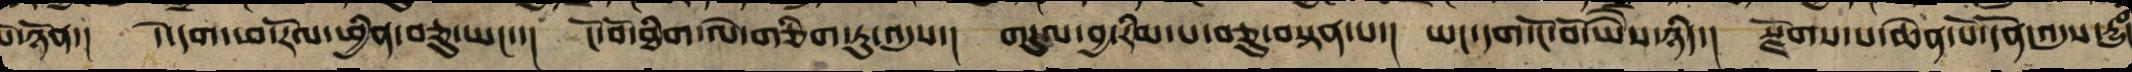པོ་ཉོན་། དེ་དག་ཕ་རོལ་ཕྱིན་བཅུ་ཡང་་། ངོ་བོ་ཐིག་ལེ་གཅིག་ཏུ་འདུས་། གདུལ་བྱ་རིམ་པ་བཅུར་བསྟན་པ་། ཡང་དག་ངོ་བོར་ཡེཻས་ཉིད་། སྫོགས་པ་ཆེན་པོ་དོན་འདུས་རྱུཾང
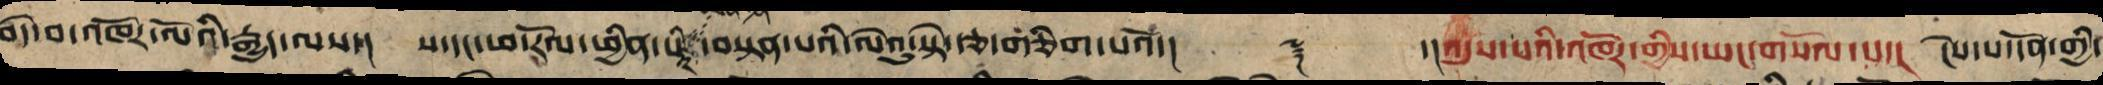བདེ་བའི་འཁོར་ལོའི་རྒྱུད་ལས་། ས་དང་ཕ་རོལ་ཕྱིན་པའི་ཡོན་ཏན་བསྟན་པའི་ལེའུ་སྟེ་ཉི་ཤུ་རྩ་གཅིག་པའོ།། ༈ ་།འདུས་པའི་འཁོར་གྱིས་ཡང་གསོལ་པ་། ངེས་པའི་དོན་གྱི་
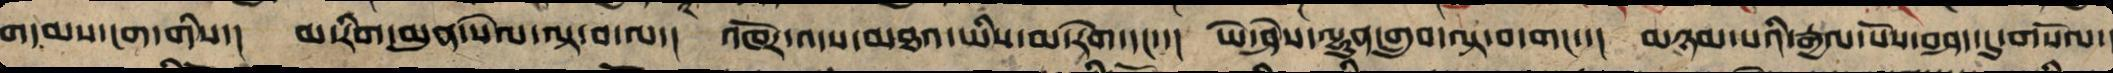གདམས་ངག་གིས་། མ་རིག་མུན་སེལ་ལྟ་བ་ལ་། འཁོར་འདས་མཐའ་ཡིས་མ་རེག་དང་་། ཡེ་ཤེས་ལྷུན་གྲུབ་ལྟ་བ་གང་་། མཉམ་པའི་རྒྱལ་པོས་བཤད་དུ་གསོལ་
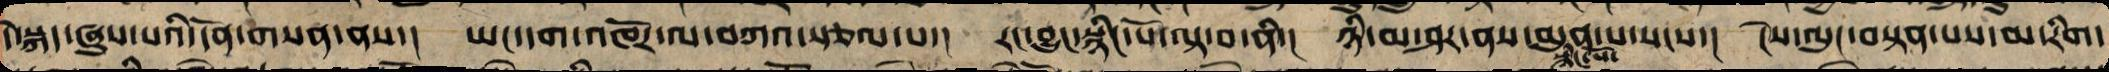དེ་སྐད་ཞུས་པའི་དོན་གསན་ནས། ཡང་དག་འཁོར་ལ་བཀའ་སྩལ་པ་། རང་བྱུང་སྙིང་པོའི་ལྟ་བ་ནི་། ཉི་མ་ཤར་ནས་མུན་པ་སངས་། ངེས་ལུང་བསྟན་པས་མ་རིག་
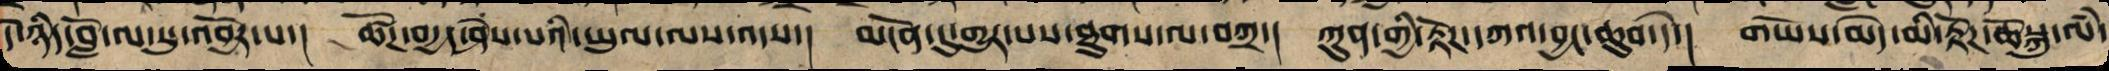དེ་ཉིད་བློ་ལ་སུ་འབྱོར་པ་། ཚོཌ་བདྱད་ཤེས་པའི་ཡུལ་ལས་འདས་། མངོན་དུ་གྱུར་པས་ཐུགས་ལ་བཀྲ་། ཀུན་གྱི་རྟོཌ་དཀའ་བྱང་ཆུབ་དེ་། གཡོས་མེད་མི་རྟོཌ་ཆོསྐུ་ལཾ་
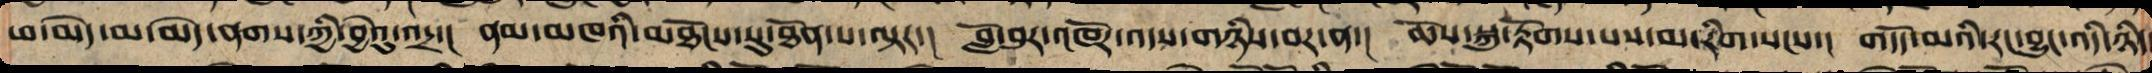ཕ་མེད་མ་མེད་ནགས་ཀྱི་བྱེའུ་འདྲ་། ནམ་མཁའི་མཐོངས་སུ་ཐོན་པ་ལྟར་། གློ་བུར་འཁོར་འདས་གཉིས་བར་ན་། ཆོས་སྐུ་རྟོགས་པས་མ་རིག་སངས་། གདོད་མའི་རང་བྱུང་འདི་ཉིད
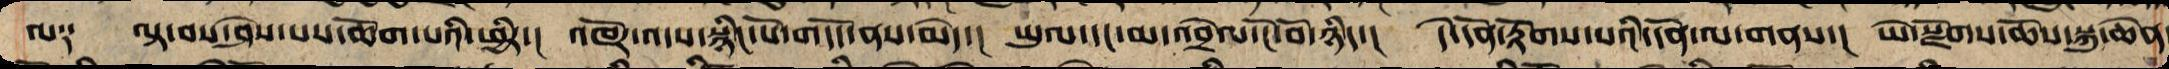ལ༑ ལྟ་བ་ཤེས་པས་ཆོག་པའི་ཕྱིར་། འཁོར་འདས་སྙིང་པོ་གདོད་ནས་མེད་། ཡུལ་དང་མ་འབྲེལ་ངོ་བོ་ཉིད་། དེ་དོན་རྟོགས་པའི་དོན་ལ་གནས་། ཡེ་སྫོགས་ཆོས་སྐུ་ཆེན
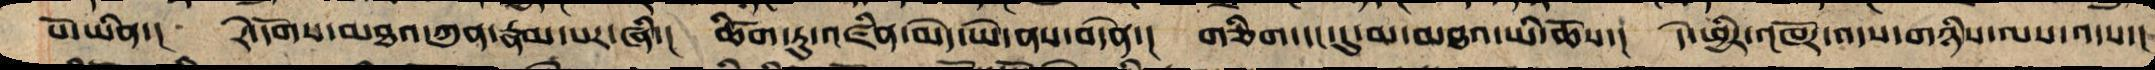པོ་ཡིན་། རེ་དོགས་མཐའ་ཀུན་རྣམ་པར་ཞི་། ཚིག་ཏུ་འཛིན་མེད་ཡེ་ནས་བདེན་། གཅིག་དང་དུ་མ་མཐའ་ཡི་ཆོས་། དེ་ཕྱིར་འཁོར་འདས་གཉིས་ལས་འདས་།
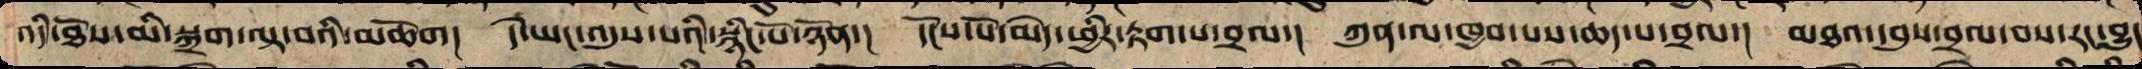འདི་ཐོས་མི་སྐྲག་ལྟ་བའི་མཆོག། དེ་ཡང་འདུས་པའི་སྙིང་པོ་ཉོན་། དངོས་པོ་མེད་ཕྱིར་རྟག་པ་བྲལ་། ཀུན་ལ་ཁྱབ་པས་ཆད་པ་བྲལ་། མཐའ་དབུས་བྲལ་བས་རང་བྱུང
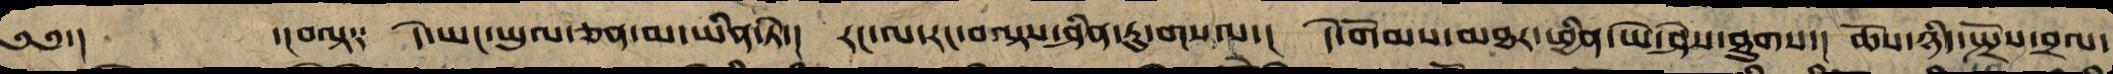༄༅་། ་ངབལྟ༑ དེ་ཡང་ཡུལ་ཅན་མ་ཡིན་ཏེ་། རང་ལ་རང་བལྟས་ཤིན་ཏུ་གསལ་། དེ་གོམས་མཐར་ཕྱིན་ཡེ་ཤེས་ཐུགས་། ཆོས་ཉིད་སྤྲོས་བྲལ་
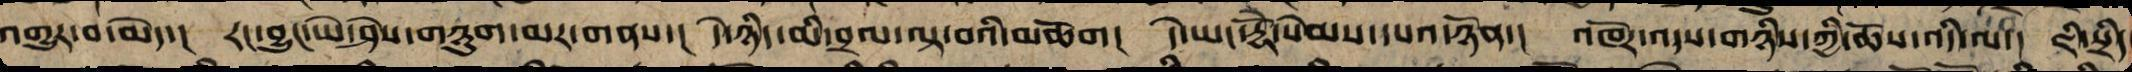འགྱུར་བ་མེད་། རང་བྱུང་ཡེ་ཤེས་གཉུག་མར་གནས་། དེ་ཉིད་མི་བྲལ་ལྟ་བའི་མཆོག། དེ་ཡང་རྡོེ་སེམས་དཔའ་ཉོན་། འཁོར་འདས་གཉིས་ཀྱི་ཆོས་འདི་ལ་། ཇི་སྲིད་
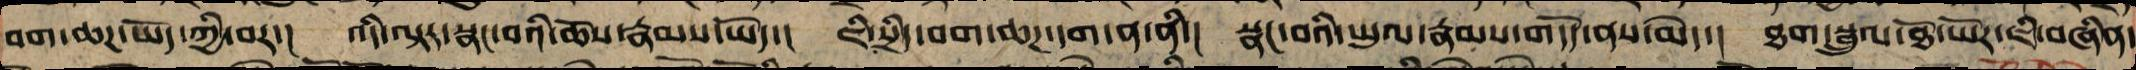བག་ཆཌ་ཡོད་ཀྱི་བར་། འདི་ལྟར་སྣང་བའི་ཆོས་རྣམས་ཡོད་། ཇི་སྲིད་བག་ཆཌ་དག་ན་ནི་། སྣང་བའི་ཡུལ་རྣམས་གདོད་ནས་མེད་། ཐག་སྦྲུལ་ཐོ་ཡོར་ཇི་བཞིན་
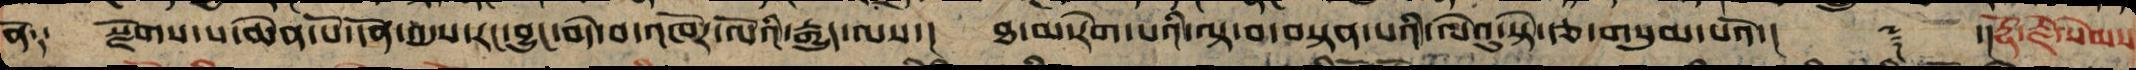ནོ༑ སྫོགས་པ་ཆེན་པོ་དོན་འདུས་རང་བྱུང་བདེ་བའི་འཁོར་ལོའི་རྒྱུད་ལས་། ཐ་མ་རེག་པའི་ལྟ་བ་བསྟན་པའི་ལེའུ་སྟེ་ཉི་ཤུ་རྩ་གསུམ་པའོ་།། ༈ ་།རྡོ་རྗེ་སེམས་
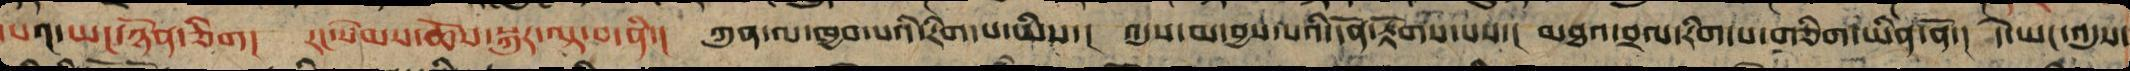དཔའ་ཡང་ཉོན་ཅིག། རང་སེམས་ཆོས་སྐུར་བལྟ་བ་ནི་། ཀུན་ལ་ཁྱབ་པའི་རིག་པ་ཡིས་། འདུས་མ་བྱས་པའི་དོན་རྟོགས་པས་། མཐའ་བྲལ་རིག་པ་གཅིག་ཡིན་ནོ་། དེ་ཡང་འདུས་
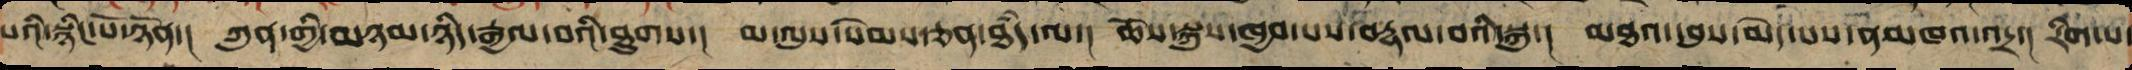པའི་སྙིང་པོ་ཉོན་། ཀུན་གྱི་མཉམ་ཉིད་རྒྱལ་བའི་ཐུགས་། མ་ལུས་སེམས་ཅན་ཐཾད་ལ་། ཆོས་སྐུས་ཁྱབ་པར་བརྡལ་བའི་སྐུ་། མཐའ་དབུས་མེད་པས་ནམ་མཁའ་འདྲ་། རིག་པ་
